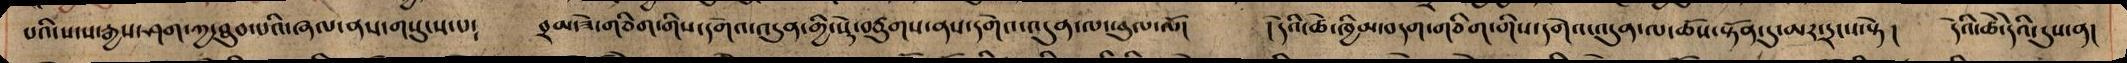པའི་སངས་རྒྱས་ཤག་ཀྱ་ཐུབ་པའི་ཞལ་ནས་གསུངས་པ༴ བྲམ་ཟེ་གཅིག་གིས་དགེའ་འདུན་གྱི་སྡེ་བཙུགས་ནས་དགེ་འདུན་ལ་ཕུལ་ལོ། །དེའི་ཚེ་ཁྱིམ་བདག་གིས་དགེའ་འདུན་ལ་ཆོས་སྟོན་དུ་མར་དྲངས་སྟེ། དེའི་ཚེ་དེའི་དུས་ན།
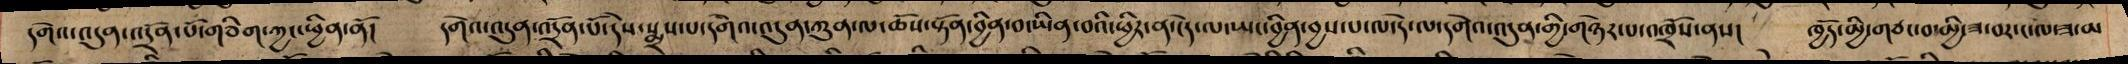དགེའ་འདུན་འདྲོན་པོ་གཅིག་ཀྱང་ཕྱིན་ནོ། དགེ་འདུན་འདྲོན་པོ་དེས་སྨྲས་པ་དགེ་འདུན་ཀུན་ལ་ཆོས་སྟོན་བྱིན་བ་ཡིན་བའི་ཕྱིར་ན་དེ་ལ་ཡང་བྱིན་བྱས་པ་ལ་དེ་ལ་དགེའ་འདུན་གྱི་གཉེར་པ་འཁྲོས་ནས། ཁྱོད་མྱི་གཙང་བ་མྱི་ཟ་བར་ང་ལ་ཟ་མ
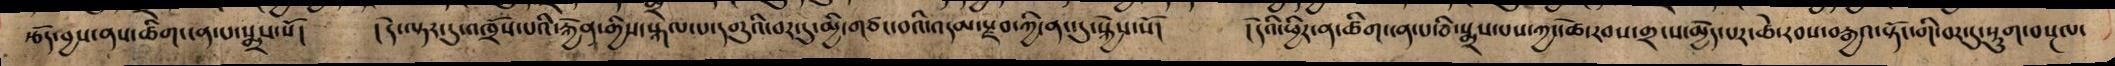རྩོད་བྱས་ནས་ཚིག་ངན་པ་སྨྲས་སོ། །དེ་ལྟར་དུ་འཁྲོས་པའི་རྐྱེན་གྱིས་སྐལ་པ་དགུའི་བར་དུ་མྱི་གཙང་བའི་འདམ་སྫབ་ཀྱི་ནང་དུ་སྐྱེས་སོ། །དེའི་ཕྱིར་ན་ཚིག་ངན་པ་ཅི་སྨྲས་པས་ཀྱང་ཚེ་རབས་གྲངས་མྱེད་པར་ཚེ་རབས་བརྒྱའ་སྟོང་གི་བར་དུ་སྡུག་བསྔལ་
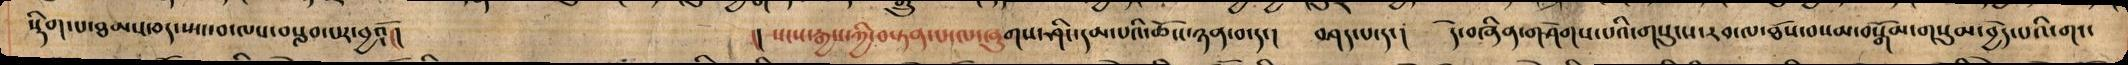སྡིག་པ་ཐམས་ཅད་ཡང་བ་ལས་བསླབ་པར་བྱའོ།། །། སངས་རྒྱས་ཀྱི་བསྟན་པ་ལ་ཞུགས་ཤིང་དམ་པའི་ཆོས་ཉན་བ་དང། བཤད་པ་དང། དེ་བཞིན་གཤེགས་པའི་གསུངས་རབ་ལ་ཐོས་བསམ་བསྒོམ་གསུམ་བྱེད་པའོ་གང་
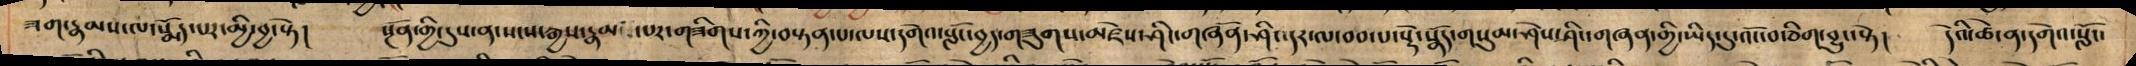ཟག་རྣམས་ལ་སྨོད་པར་མྱི་བྱ་སྟེ། སྔོན་གྱི་དུས་ན་སངས་རྒྱས་རྣམས་པར་གཟིགས་ཀྱི་བསྟན་པ་ལས་དགེའ་སློང་བྱད་གཟུགས་མཛེས་ཤིང་གཞོན་ཤིང་དར་ལ་བབ་པ་སྡེ་སྣོད་གསུམ་ཤེས་ཤིང་གཞན་གྱི་ཡིད་དུ་འོང་བ་ཅིག་བྱུང་སྟེ། དེའི་ཚེ་ན་དགེའ་སློང་
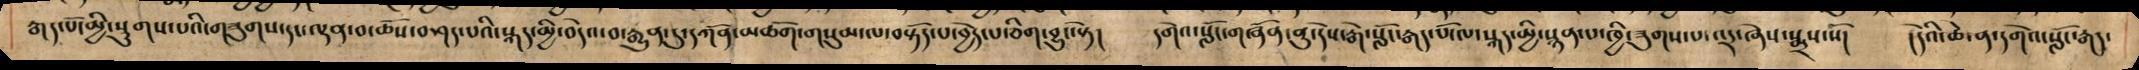རྒད་པོ་མྱི་སྡུགས་པའི་གཟུགས་དང་ལྡན་བ་ཆོས་བཤད་པའི་སྐད་མྱི་བདེའ་བ་རྒྱུན་དུ་དཀོན་མཆོག་གསུམ་ལ་བསྟོད་པ་བྱེད་པ་ཅིག་བྱུང་སྟེ་དགེའ་སློང་གཞོན་ནུ་དེས་རྒེ་སློང་རྒད་པོ་ལ་སྐད་མྱི་སྙན་པ་ཁྱི་ཟུགས་པ་འདྲ་ཞེས་སྨྲས་སོ། །དེའི་ཚེ་ན་དགེའ་སློང་རྒད་
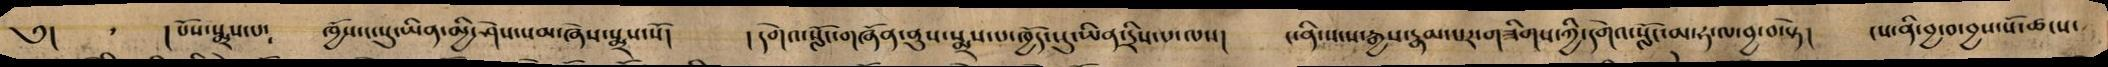༅། །པོས་སྨྲས་པ་ ཁྱོས་ང་སུ་ཡིན་མྱི་ཤེས་སམ་ཞེས་སྨྲས་སོ། ། དགེ་སློང་གཞོན་ནུས་སྨྲས་པ་ཁྱོད་སུ་ཡིན་དྲིས་པ་ལས། ང་ནི་སངས་རྒྱས་རྣམ་པར་གཟིགས་ཀྱི་དགེའ་སློང་མ་ཧ་ལ་བྱ་བ་སྟེ། ངས་ནི་བྱ་བ་བྱས་སོ་ཚངས་
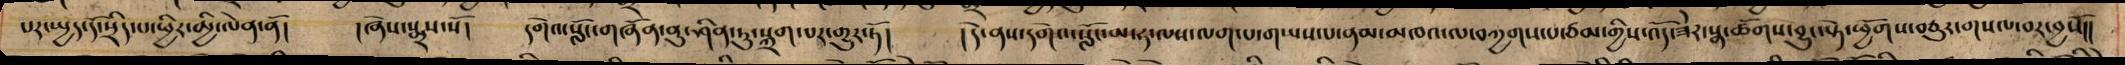པར་སྤྱད་དོ་སྲིད་པ་ཕྱིར་མྱི་ལེན་ནོ། །ཞེས་སྨྲས་སོ། དགེའ་སློང་གཞོན་ནུ་ཤིན་ཏུ་སྐྲག་པར་གྱུར་ཏོ། །དེ་ནས་དགེའ་སློང་མ་ཧ་ལས་ལག་པ་གཡས་པ་ནམ་མཁའ་ལ་བཀྱགས་པ་ཙམ་གྱིས་འོད་ཟེར་སྣ་ཚོགས་བྱུང་སྟེ་ཕྱོགས་བཅུར་གསལ་བེ་བྱསོ།།
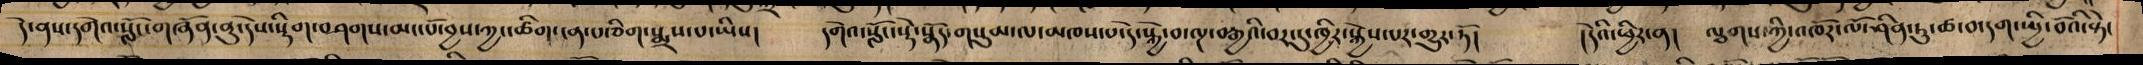དེ་ནས་དགེའ་སློང་གཞོན་ནུ་དེས་སྡིག་བགས་མང་པོ་བྱས་ཀྱང་ཚིག་ངན་པ་ཅིག་སྨྲས་པ་ཡིས། དགེའ་སློང་སྡེ་སྣོད་གསུམ་ལ་མཁས་པ་དེ་སྐྱེ་བ་ལྔ་བརྒྱའི་བར་དུ་ཁྱིར་སྐྱེས་པར་གྱུར་ཏོ། །དེའི་ཕྱིར་ན། ལྕགས་ཀྱི་འཁོར་ལོ་ཤིན་ཏུ་ཚ་བ་དག་སྤྱི་བོའི་སྟེ་
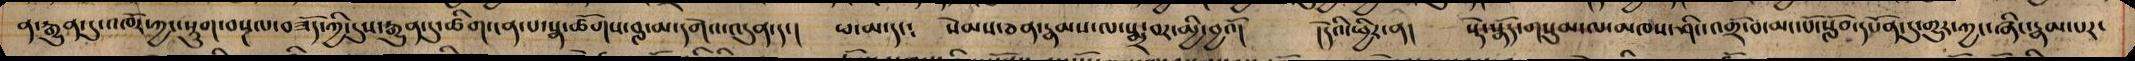ན་རྒྱུན་དུ་འཁོར་ཀྱང་སྡུག་བསྔལ་བཟོད་ཀྱི་དུས་རྒྱུན་དུ་ཚིག་ངན་པ་སྣ་ཚོགས་བླ་མ་དགེའ་འདུན་དང། ཕ་མ་དང༴ སེམས་ཅན་རྣམས་ལ་སྨྲ་བར་མྱི་བྱའོ། །དེའི་ཕྱིར་ན། སྡེ་སྣོད་གསུམ་ལ་མཁས་ཤིང་འགྲོ་བ་མང་པོ་སློབ་དཔོན་དུ་གྱུར་ཀྱང་ཞིང་རྣམ་པར་
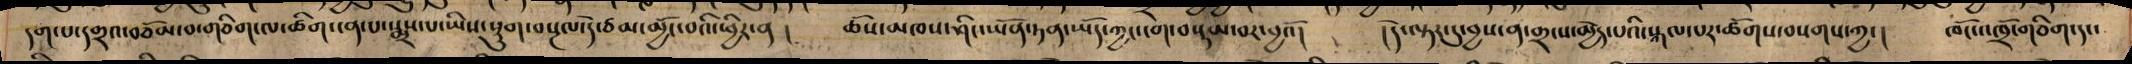དག་པ་དགྲའ་བཅོམ་བ་གཅིག་ལ་ཚིག་ངན་པ་སྨྲས་པ་ཡིས་སྡུག་བསྔལ་དེ་ཙམ་མྱོང་བའི་ཕྱིར་ན། ཆོས་མཁས་ཤིང་ཡོན་ཏན་ཡོད་ཀྱང་ངག་བསྡམ་བར་བྱའོ། །དེ་ལྟར་དུ་བྱས་ན་གྲངས་མྱེད་པའི་སྐལ་པར་ཚོགས་བསགས་ཀྱང། ཁོངས་ཁྲོ་གཅིག་དང་
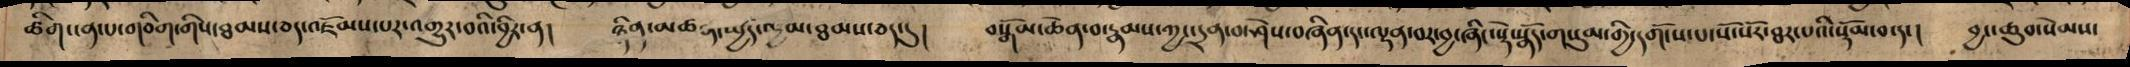ཚིག་ངན་པ་གཅིག་གིས་ཐམས་ཅད་འཇོམས་པར་འགྱུར་བའི་བྱིར་ན། ཉིན་མཚན་སྤྱོད་ལམ་ཐམས་ཅད་དུ། བསྒོམ་ཆེན་བ་རྣམས་ཀྱང་དྲན་བ་ཤེས་བཞིན་དང་ལྡན་བར་བྱ་ཞིང་སྡེ་སྣོད་གསུམ་གྱི་དགོངས་པ་སོ་སོར་ཐར་པའི་སྡོམ་བ་དང། བྱང་ཆུབ་སེམས་
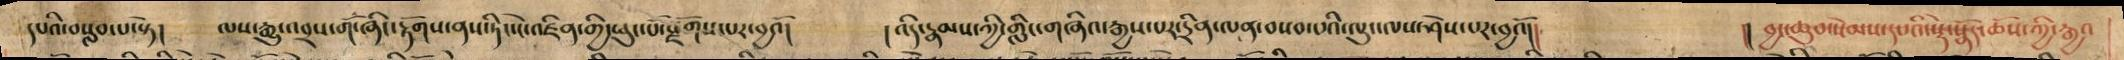དཔའི་བསླབ་པ་སྟེ། ལས་རྒྱུ་འབྲས་གོ་ཞིང་རྟོགས་ནས་ཏིང་ངེ་འཛིན་གྱི་ཕུང་པོ་སྫོགས་པར་བྱའོ། །འདི་རྣམས་ཀྱི་གླིང་གཞིའ་རྒྱས་པར་དྲིན་ལན་བསབ་པའི་ལུང་ལས་ཤེས་པར་བྱའོ།། །། བྱང་ཆུབ་སེམས་དཔའི་སྡེ་སྣོད་ཆོས་ཀྱི་རྒྱའ
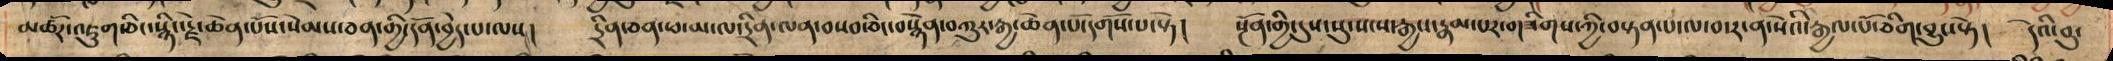མཚོར་འཇུག་ཅིང་སྙིང་རྗེ་ཅེན་པོས་སེམས་ཅན་གྱི་དོན་བྱེད་པ་ལས། དྲིན་ཅན་ཕ་མ་ལ་དྲིན་བསབ་ཅིང་བསྙེན་བཀུར་རྒྱ་ཆེན་པོ་དགོས་པ་སྟེ། སྔོན་གྱི་དུས་སུ་སངས་རྒྱས་རྣམ་པར་གཟིགས་ཀྱི་བསྟན་པ་ལ་བ་ར་ན་སེའི་རྒྱལ་པོ་ཅིག་བྱུང་སྟེ། དེའི་བུ་
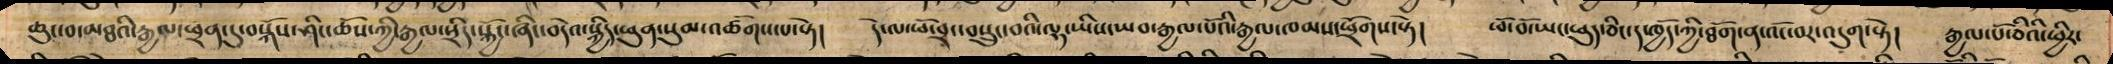ཆུང་བ་མཐའི་རྒྱལ་ཕྲན་དུ་བསྐོས་ཤིང་ཆོས་ཀྱི་རྒྱལ་སྲིད་སྐྱོང་ཞིང་བདེའ་སྐྱིད་ཕུན་སུམ་འཚོགས་པ་སྟེ། དེ་ལ་ཕོ་བྲང་བསྲུང་བའི་ལྷ་ཡིས་ཡབ་རྒྱལ་པོའི་རྒྱལ་ཁམས་ཕྲོགས་སྟེ། ཕོ་བོ་ཡང་ཕུད་ཅིང་ད་ཁྱོད་ཀྱི་ཐོག་ནས་འོང་བར་འདུག་སྟེ། རྒྱལ་པོ་ཅིའི་ཕྱིར་
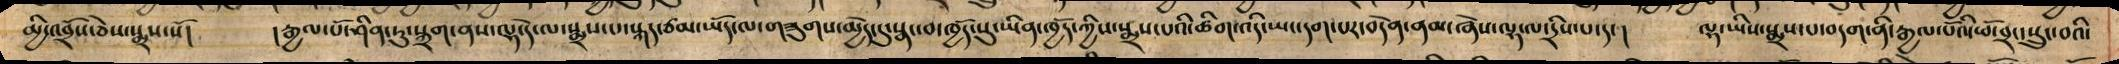མྱི་འབྲོས་ཅེས་སྨྲས་སོ། །རྒྱལ་པོ་ཤིན་ཏུ་སྐྲག་ནས་ལྷ་དེ་ལ་སྨྲས་པ་སྐད་ཙམ་ཡོད་ལ་གཟུགས་མྱེད་དུ་སྣང་བ་ཁྱོད་སུ་ཡིན་ཁྱོད་ཀྱིས་སྨྲས་པའི་ཚིག་འདི་ཡང་དག་པར་བདེན་ནམ་ཞེས་ལྷ་ལ་དྲིས་པ་དང། ལྷ་ཡིས་སྨྲས་པ་བདག་ནི་རྒྱལ་པོའི་ཕོ་བྲང་སྲུང་བའི་
